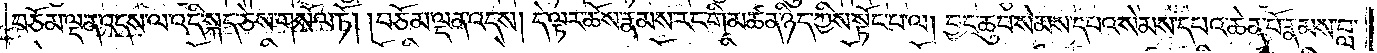བཅོམ་ལྡན་འདས་ལ་འདི་སྐད་ཅེས་གསོལ་ཏོ། །བཅོམ་ལྡན་འདས། དེ་ལྟར་ཆོས་རྣམས་རང་གི་མཚན་ཉིད་ཀྱིས་སྟོང་པ་ལ། བྱང་ཆུབ་སེམས་དཔའ་སེམས་དཔའ་ཆེན་པོ་རྣམས་བླ་
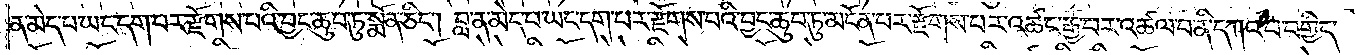ན་མེད་པ་ཡང་དག་པར་རྫོགས་པའི་བྱང་ཆུབ་ཏུ་སྨོན་ཅིང༌། བླ་ན་མེད་པ་ཡང་དག་པར་རྫོགས་པའི་བྱང་ཆུབ་ཏུ་མངོན་པར་རྫོགས་པར་འཚང་རྒྱ་བར་འཚལ་བ་ནི་དཀའ་བ་བགྱིད་
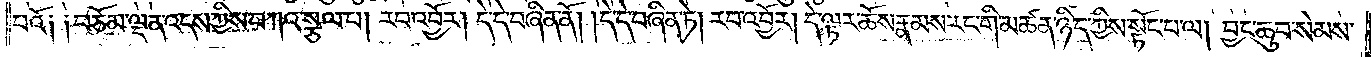པའོ། །བཅོམ་ལྡན་འདས་ཀྱིས་བཀའ་སྩལ་པ། རབ་འབྱོར། དེ་དེ་བཞིན་ནོ། །དེ་དེ་བཞིན་ཏེ། རབ་འབྱོར། དེ་ལྟར་ཆོས་རྣམས་རང་གི་མཚན་ཉིད་ཀྱིས་སྟོང་པ་ལ། བྱང་ཆུབ་སེམས་
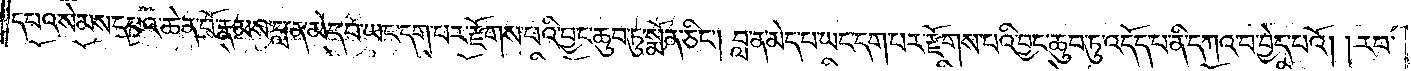དཔའ་སེམས་དཔའ་ཆེན་པོ་རྣམས་བླ་ན་མེད་པ་ཡང་དག་པར་རྫོགས་པའི་བྱང་ཆུབ་ཏུ་སྨོན་ཅིང༌། བླ་ན་མེད་པ་ཡང་དག་པར་རྫོགས་པའི་བྱང་ཆུབ་ཏུ་འདོད་པ་ནི་དཀའ་བ་བྱེད་པའོ། །རབ་
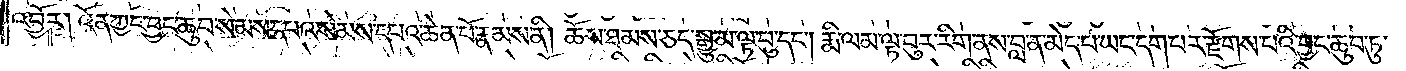འབྱོར། འོན་ཀྱང་བྱང་ཆུབ་སེམས་དཔའ་སེམས་དཔའ་ཆེན་པོ་རྣམས་ནི། ཆོས་ཐམས་ཅད་སྒྱུ་མ་ལྟ་བུ་དང༌། རྨི་ལམ་ལྟ་བུར་རིག་ནས་བླ་ན་མེད་པ་ཡང་དག་པར་རྫོགས་པའི་བྱང་ཆུབ་ཏུ་
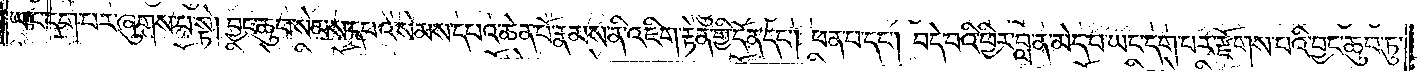ཡང་དག་པར་ཞུགས་པ་སྟེ། བྱང་ཆུབ་སེམས་དཔའ་སེམས་དཔའ་ཆེན་པོ་རྣམས་ནི་འཇིག་རྟེན་གྱི་དོན་དང༌། ཕན་པ་དང༌། བདེ་བའི་ཕྱིར་བླ་ན་མེད་པ་ཡང་དག་པར་རྫོགས་པའི་བྱང་ཆུབ་ཏུ་
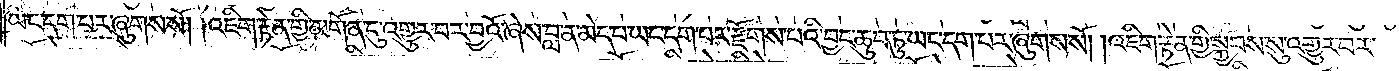ཡང་དག་པར་ཞུགས་སོ། །འཇིག་རྟེན་གྱི་མངོན་དུ་འགྱུར་བར་བྱའོ་ཞེས་བླ་ན་མེད་པ་ཡང་དག་པར་རྫོགས་པའི་བྱང་ཆུབ་ཏུ་ཡང་དག་པར་ཞུགས་སོ། །འཇིག་རྟེན་གྱི་སྐྱབས་སུ་འགྱུར་བར་
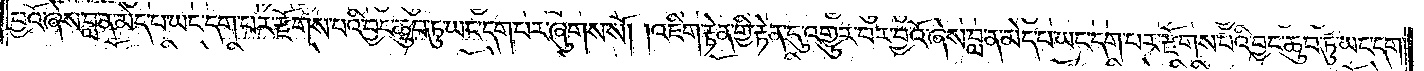བྱའོ་ཞེས་བླ་ན་མེད་པ་ཡང་དག་པར་རྫོགས་པའི་བྱང་ཆུབ་ཏུ་ཡང་དག་པར་ཞུགས་སོ། །འཇིག་རྟེན་གྱི་རྟེན་དུ་འགྱུར་བར་བྱའོ་ཞེས་བླ་ན་མེད་པ་ཡང་དག་པར་རྫོགས་པའི་བྱང་ཆུབ་ཏུ་ཡང་དག་
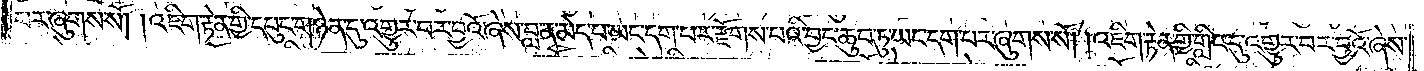པར་ཞུགས་སོ། །འཇིག་རྟེན་གྱི་དཔུང་གཉེན་དུ་འགྱུར་བར་བྱའོ་ཞེས་བླ་ན་མེད་པ་ཡང་དག་པར་རྫོགས་པའི་བྱང་ཆུབ་ཏུ་ཡང་དག་པར་ཞུགས་སོ། །འཇིག་རྟེན་གྱི་གླིང་དུ་འགྱུར་བར་བྱའོ་ཞེས་
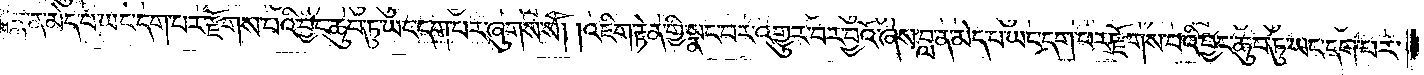བླ་ན་མེད་པ་ཡང་དག་པར་རྫོགས་པའི་བྱང་ཆུབ་ཏུ་ཡང་དག་པར་ཞུགས་སོ། །འཇིག་རྟེན་གྱི་སྣང་བར་འགྱུར་བར་བྱའོ་ཞེས་བླ་ན་མེད་པ་ཡང་དག་པར་རྫོགས་པའི་བྱང་ཆུབ་ཏུ་ཡང་དག་པར་
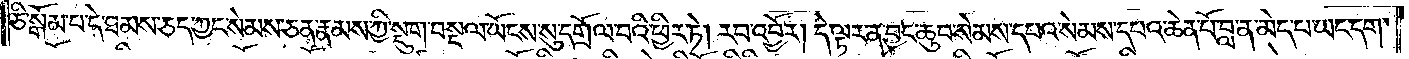ཅི་སྒོམ་པ་དེ་ཐམས་ཅད་ཀྱང་སེམས་ཅན་རྣམས་ཀྱི་སྡུག་བསྔལ་ཡོངས་སུ་དགྲོལ་བའི་ཕྱིར་ཏེ། རབ་འབྱོར། དེ་ལྟར་ན་བྱང་ཆུབ་སེམས་དཔའ་སེམས་དཔའ་ཆེན་པོ་བླ་ན་མེད་པ་ཡང་དག་
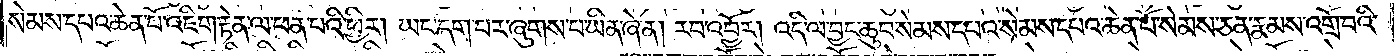སེམས་དཔའ་ཆེན་པོ་འཇིག་རྟེན་ལ་ཕན་པའི་ཕྱིར། ཡང་དག་པར་ཞུགས་པ་ཡིན་ཞེ་ན། རབ་འབྱོར། འདི་ལ་བྱང་ཆུབ་སེམས་དཔའ་སེམས་དཔའ་ཆེན་པོ་སེམས་ཅན་རྣམས་འགྲོ་བའི་
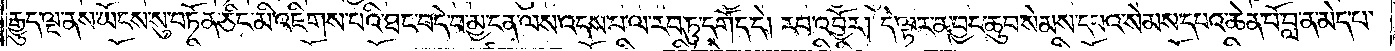རྒྱུད་ལྔནས་ཡོངས་སུ་བཏོན་ཅིང་མི་འཇིགས་པའི་ཐང་བདེ་བ་མྱ་ངན་ལས་འདས་པ་རབ་ཏུ་འགོད་དེ། རབ་འབྱོར། དེ་ལྟར་ན་བྱང་ཆུབ་སེམས་དཔའ་སེམས་དཔའ་ཆེན་པོ་བླ་ན་མེད་པ་
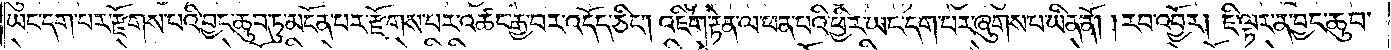ཡང་དག་པར་རྫོགས་པའི་བྱང་ཆུབ་ཏུ་མངོན་པར་རྫོགས་པར་འཚང་རྒྱ་བར་འདོད་ཅིང༌། འཇིག་རྟེན་ལ་ཕན་པའི་ཕྱིར་ཡང་དག་པར་ཞུགས་པ་ཡིན་ནོ། །རབ་འབྱོར། ཇི་ལྟར་ན་བྱང་ཆུབ་
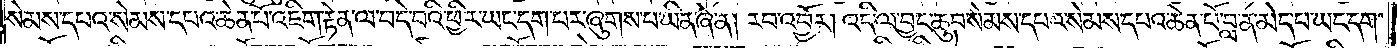སེམས་དཔའ་སེམས་དཔའ་ཆེན་པོ་འཇིག་རྟེན་ལ་བདེ་བའི་ཕྱིར་ཡང་དག་པར་ཞུགས་པ་ཡིན་ཞེ་ན། རབ་འབྱོར། འདི་ལ་བྱང་ཆུབ་སེམས་དཔའ་སེམས་དཔའ་ཆེན་པོ་བླ་ན་མེད་པ་ཡང་དག་
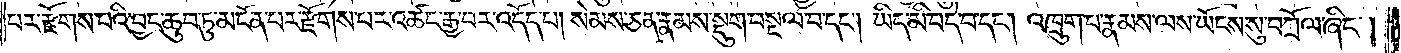པར་རྫོགས་པའི་བྱང་ཆུབ་ཏུ་མངོན་པར་རྫོགས་པར་འཚང་རྒྱ་བར་འདོད་པ། སེམས་ཅན་རྣམས་སྡུག་བསྔལ་བ་དང༌། ཡིད་མི་བདེ་བ་དང༌། འཁྲུག་པ་རྣམས་ལས་ཡོངས་སུ་བཀྲོལ་ཞིང༌།
